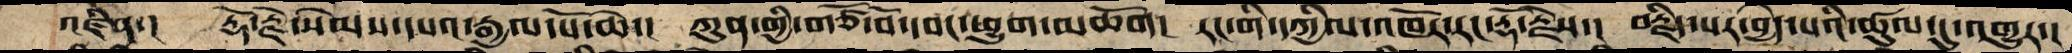འཛིན་།   རྡོ་རྗེ་སེམས་དཔའ་རྒྱལ་པོ་ཆེ་།  ཀུན་གྱི་གཙོ་བོ་དབང་ཕྱུག་མཆོག།  རང་གི་དཀྱིལ་འཁོར་རང་རྡོ་རྗེས་།  བརྗིད་པར་བྱེད་པའི་ཚུལ་དུ་འགྱུར་།
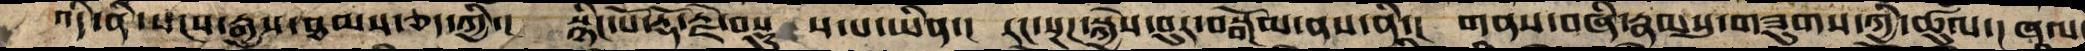འདི་ནི་སངས་རྒྱས་ཐམས་ཅད་ཀྱི་།  སྙིང་པོ་རྡོ་རྗེ་བསྡུ  ས་པ་ཡིན་།  རང་སྔཌ་སྐྱེས་བུར་བསྒོམ་ནས་ནི་།  གནས་བཞི་རྣམསུ་གཟུགས་ཀྱི་ཚུལ་། ཞལ་
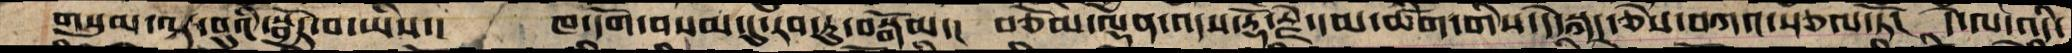གསུམ་ལྟ་བུའི་སྦྱོར་བ་ཡིས་།    ཁ་དོག་བསམ་དུ་རབ་ཏུ་བསྒོམ་།  བཅོམ་ལྡན་འདས་རྡོ་རྗེ་དམ་ཚིག་གིས་དེ་སྐད་ཅེས་བཀའ་སྩལ་ཏོ།  དེ་ལ་འདི་
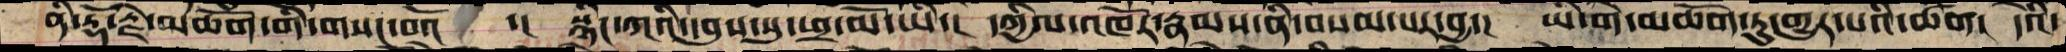ནི་རྡོ་རྗེ་མཆོག་གི་གསང་བའོ ་།  སྙིང་ཀའི་དབུས་སུ་ཕྲ་མོ་ཡི་།  དཀྱིལ་འཁོར་རྣམས་ནི་བསམ་པར་བྱ་།  ཡི་གེ་མཆོག་ཏུ་གྱུར་པའི་ཚག།  དེའི་
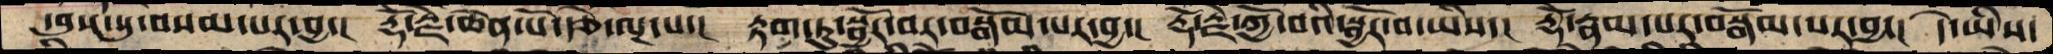དབུས་སུ་བསམ་པར་བྱ་།  རྡོ་རྗེ་ཆེན་པོ་རྩེ་ལྔ་པ་།  རྟག་ཏུ་སྦྱོར་བར་བསྒོམ་པར་བྱ་།  རྡོ་རྗེ་ཀྱོ་བའི་སྦྱོར་བ་ཡིས་།  རྡོེ་རྣམ་པར་བསྒོམ་པར་བྱ་།  དེ་ཡིས་
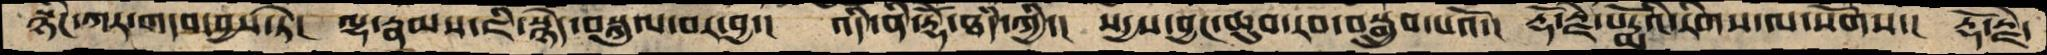སྙིང་ཀར་གདབ་བྱས་ཏེ།  ལྷ་རྣམས་ཇི་སྙེད་བསྐུལ་བར་བྱ་།  འདི་ནི་རྡོེ་ཐཾད་ཀྱི་།  སདྱས་བྱང་ཆུབ་རབ་བསྒྲུབ་པའོ་།  རྡོ་རྗེ་པདྨོའི་རིགས་ལ་སོགས་།  རྡོ་རྗེ་
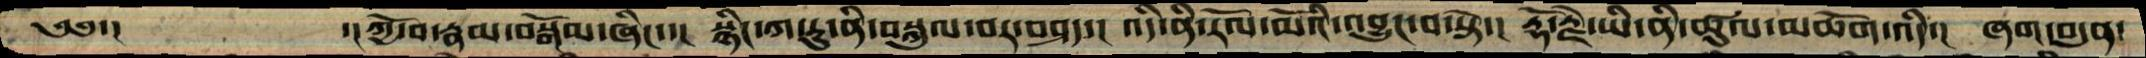༄༅་།    ་།ཀྱོ་བ་རྣམ་བསྒོམ་ཞིང་་།  སྙིང་ཀ་རུ་ནི་བསྐུལ་བར་བཤད་།  འདི་ནི་རོལ་མོའི་འབྱུང་བ་སྟེ་།  རྡོ་རྗེ་ཡི་ནི་ཚུལ་མཆོག་འདི་།  ཞག་བདུན་
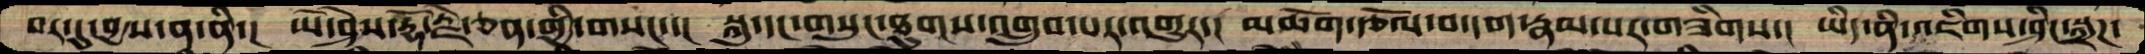བར་དུ་བྱས་ན་ནི་།  ཡེ་ཤེས་རྡོ་རྗེ་ཅན་གྱི་གསང་་།   སྐུ་དང་གསུང་ཐུགས་འགྲུབ་པར་འགྱུར་།  མཆོག་རྩོལ་བ་དག་རྣམ་པར་གཟིགས་།  ཡིད་ནི་འཇིགས་ཤིང་སྐྲཌ་
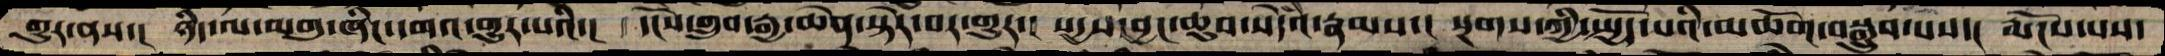གྱུར་ནས་།  ཉིད་ལ་མགུ་ཞིང་དགའ་གྱུར་པའི་།  དངོས་གྲུབ་རྒྱ་ཆེན་སྟེར་བར་འགྱུར་།  སདྱས་བྱང་ཆུབ་སེདཾའ་རྣམས་།  སྔགས་ཀྱི་སྤྱོད་པའི་མཆོག་བསྒྲུབ་པས་།  རྨོངས་པས་
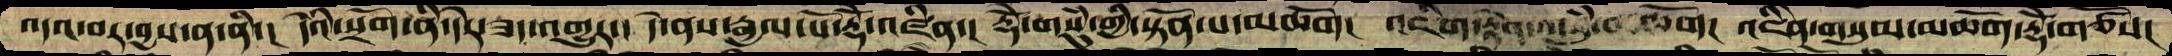འདའ་བར་བྱས་ན་ནི་།  དེའི་སྲོག་ནི་དེར་ཟད་འགྱུར་། དེ་ནས་རྒྱལ་པོ་རྡོེ་འཛིན་། རྡོེ་གསུཾ་གྱི་སྟོན་པ་མཆོག། འཇིག་རྟེན་གསུཾ་མཆོག། འཇིེན་གསུམ་མཆོག་རྡོེ་གཙོས།
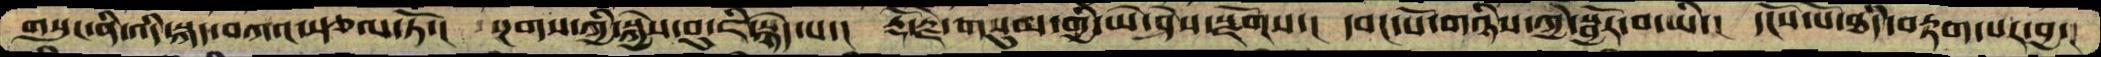གསུང་ནི་འདི་སྐད་བཀའ་སྩལ་ཏོ་།  སྔགས་ཀྱི་སྐྱེས་བུ་ཇི་སྙེད་པ་།  རྡོ་རྗེ་གསུམ་གྱི་ཡེ་ཤེས་སྫོགས་།  དབང་པོ་གཉིས་ཀྱི་སྦྱོོར་བ་ཡི་།  དངོས་པོ་ཐཾད་བརྟག་པར་བྱ་།
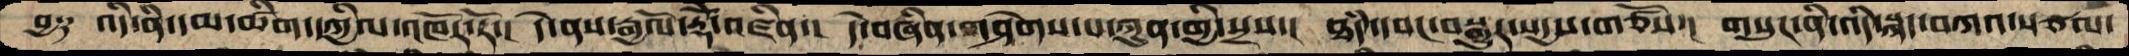བྱ༑ འདི་ནི་དམ་ཚིག་དཀྱིལ་འཁོར་རོ་། དེ་ནས་རྒྱལོ་རྡོེ་འཛིན་།  དེ་བཞིན་གཤེགས་པ་ཀུན་གྱི་སྲས་། ཐཾད་དབང་བསྒྱུར་སདྱས་གཙོས་། གསུང་ནི་འདི་སྐད་བཀའ་སྩལ་
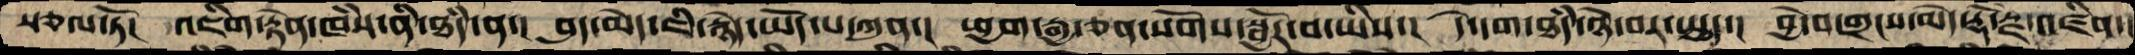སྩལ་ཏོ།  འཇིག་རྟེན་ཁཾས་ནི་ཐཾད་ན་།  བུད་མེད་ཇི་སྙེད་ཡོད་པ་ཀུན་།  ཕྱག་རྒྱ་ཅན་སོགས་སྦྱོར་བ་ཡིས་།  དེ་དག་ཐཾད་ཉེ་བར་སྤྱད་།  བྱེ་བ་གྲངས་མེད་རྡོ་རྗེ་འཛིན་།
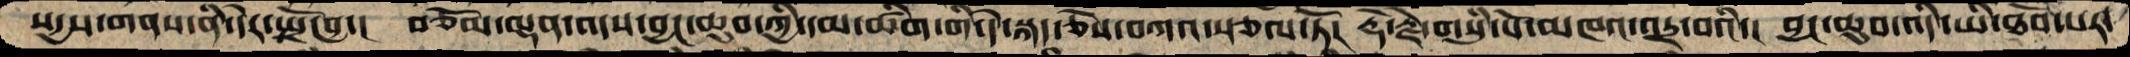སདྱས་གནས་ནི་དེར་སྤྲོ་བྱ་།  བཅོམ་ལྡན་འདས་བྱང་ཆུབ་ཀྱི་དམ་ཚིག་གི་དེ་སྐད་ཅེས་བཀའ་སྩལ་ཏོ།  རྡོ་རྗེ་གསུཾ་པོ་མཁའ་འདྲ་བའི་། བྱང་ཆུབ་འདི་ཡི་ཐོབ་པར་
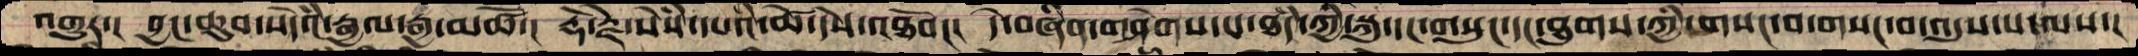འགྱུར་། བྱང་ཆུབ་སེདཾའ་རྒྱལ་རྒྱ་མཚོ་།  རྡོ་རྗེ་སེསཾ་དཔའི་ཚེ་དེས་འཐོབ།།།  དེ་བཞིན་གཤེགས་པ་ཐཾད་ཀྱི་སྐུ་དང་གསུང་དང་ཐུགས་ཀྱི་གསང་བ་གསང་བ་འདུས་པ་ལས་།
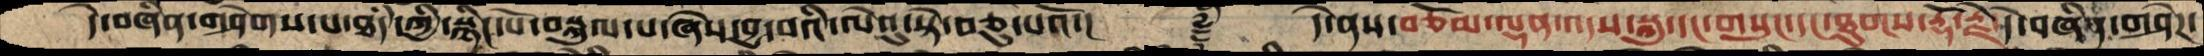དེ་བཞིན་གཤེགས་པ་ཐཾད་ཀྱི་སྙིང་པོ་བསྐུལ་པ་ཞེས་བྱ་བའི་ལེའུ་སྟེ་བཅུ་པའོ་།     ࿑    དེ་ནས་བཅོམ་ལྡན་འདས་སྐུ་དང་གསུང་དང་ཐུགས་རྡོ་རྗེ་དེ་བཞིན་གཤེཌ་
